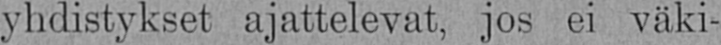yhdistykset ajattelevat, jos ei väki-
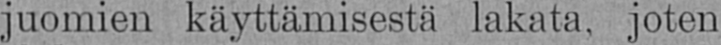juomien käyttämisestä lakata, joten
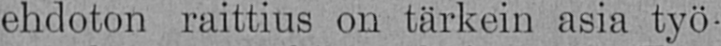ehdoton raittius on tärkein asia työ-
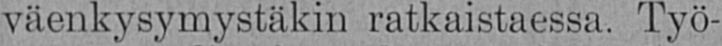väenkysymystäkin ratkaistaessa. Työ-
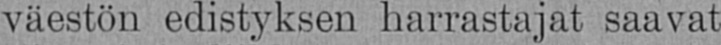väestön edistyksen harrastajat saavat
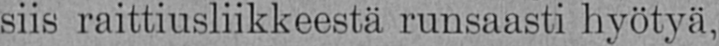siis raittiusliikkeestä runsaasti hyötyä,
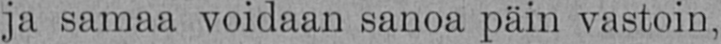ja samaa voidaan sanoa päin vastoin,
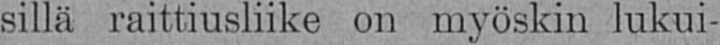sillä raittiusliike on myöskin lukui-
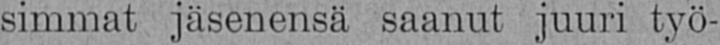simmat jäsenensä saanut juuri työ-
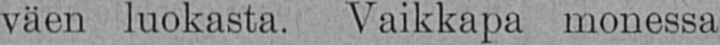väen luokasta. Vaikkapa monessa
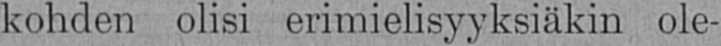kohden olisi erimielisyyksiäkin ole-
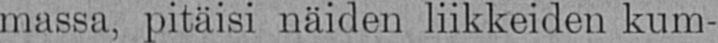massa, pitäisi näiden liikkeiden kum-
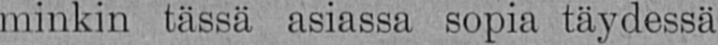minkin tässä asiassa sopia täydessä
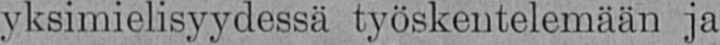yksimielisyydessä työskentelemään ja
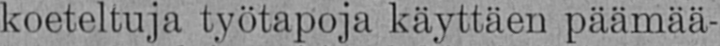koeteltuja työtapoja käyttäen päämää-
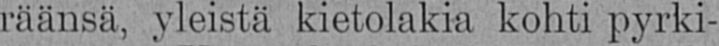räänsä, yleistä kietolakia kohti pyrki-
